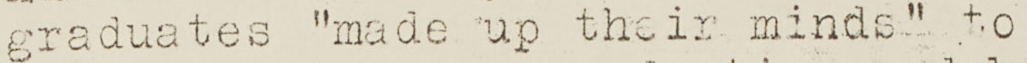graduates "made up their minds" to
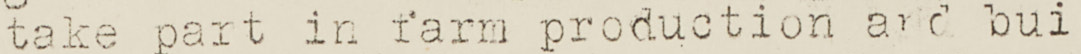take part in farm production and bui
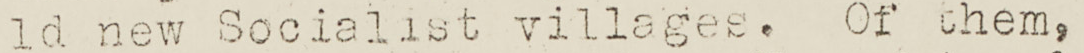ld new Socialist villages. Of them,
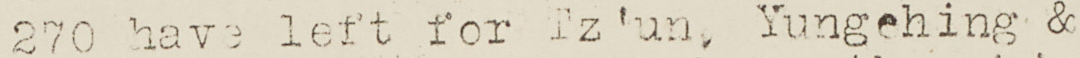270 have left for Tz'un, Yungching &
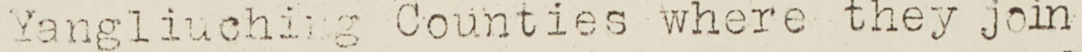Yangliuching Counties where they join
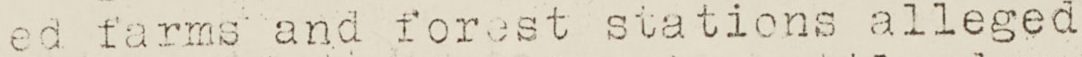ed farms and forest stations alleged
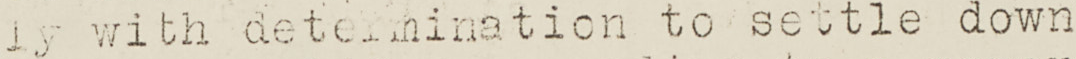ly with determination to settle down
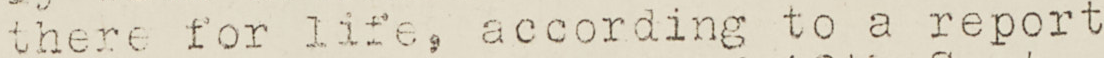there for life, according to a report
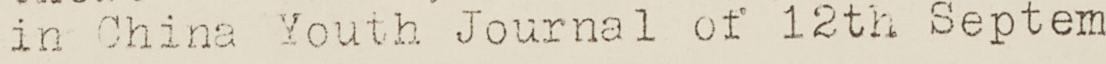in China Youth Journal of 12 Septem
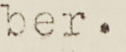ber.
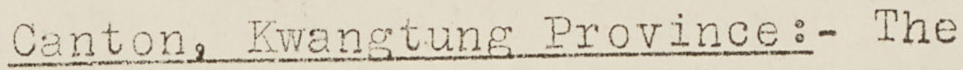Canton, Kwangtung Province: The
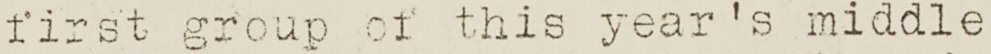first group of this year's middle
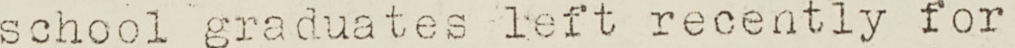school graduates left recently for
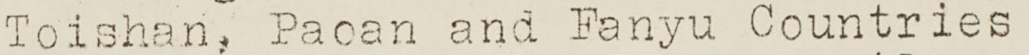Toishan, Paoan and Fanyu Countries
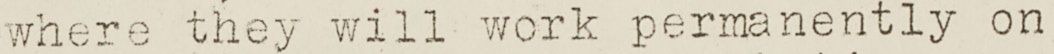where they will work permanently on
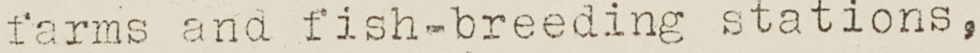farms and fish-breeding stations,
